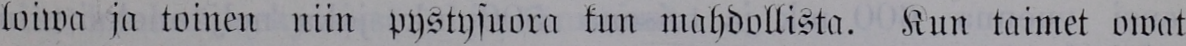loiwa ja toinen niin pystysuora kun mahdollista. Kun taimet owat
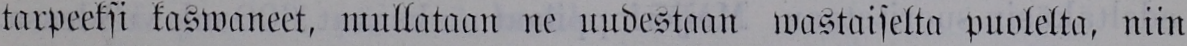tarpeeksi kaswaneet. mullataan ne uudestaan wastaiselta puolelta, niin
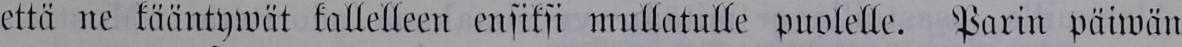että ne kääntywät kallelleen ensiksi mullatulle puolelle. Parin päiwän
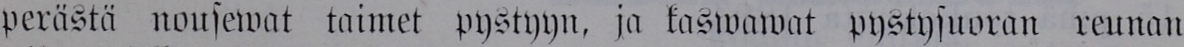perästä nousewat taimet pystyyn, ja kaswawat pystysuoran reunan
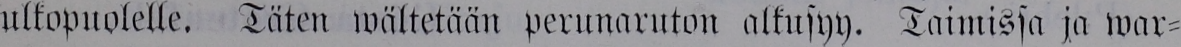ulkopuolelle. Täten wältetään perunaruton alkusyy. Taimissa ja war-
